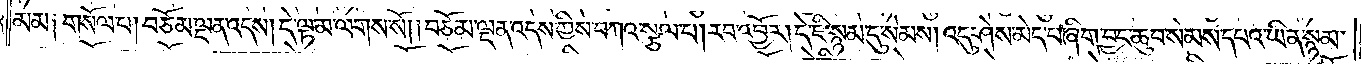མམ༑ གསོལ་པ། བཅོམ་ལྡན་འདས། དེ་ལྟ་མ་ལགས་སོ། །བཅོམ་ལྡན་འདས་ཀྱིས་བཀའ་སྩལ་པ། རབ་འབྱོར། དེ་ཇི་སྙམ་དུ་སེམས། འདུ་ཤེས་མེད་པ་ཞིག་བྱང་ཆུབ་སེམས་དཔའ་ཡིན་སྙམ་
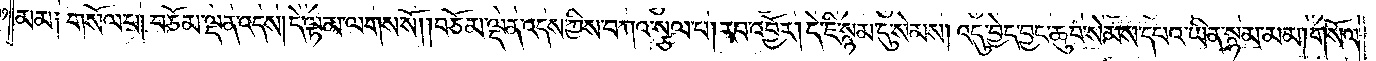མམ༑ གསོལ་པ། བཅོམ་ལྡན་འདས། དེ་ལྟ་མ་ལགས་སོ། །བཅོམ་ལྡན་འདས་ཀྱིས་བཀའ་སྩལ་པ། རབ་འབྱོར། དེ་ཇི་སྙམ་དུ་སེམས། འདུ་བྱེད་བྱང་ཆུབ་སེམས་དཔའ་ཡིན་སྙམ་མམ། གསོལ་
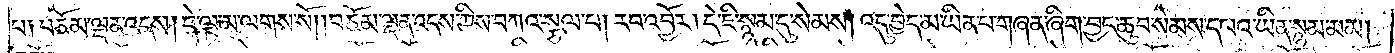པ༑ བཅོམ་ལྡན་འདས། དེ་ལྟ་མ་ལགས་སོ། །བཅོམ་ལྡན་འདས་ཀྱིས་བཀའ་སྩལ་པ། རབ་འབྱོར། དེ་ཇི་སྙམ་དུ་སེམས། འདུ་བྱེད་མ་ཡིན་པ་གཞན་ཞིག་བྱང་ཆུབ་སེམས་དཔའ་ཡིན་སྙམ་མམ།
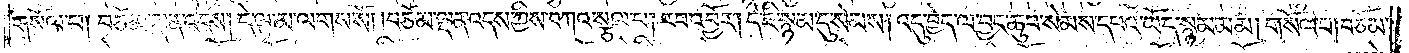གསོལ་པ། བཅོམ་ལྡན་འདས། དེ་ལྟ་མ་ལགས་སོ། །བཅོམ་ལྡན་འདས་ཀྱིས་བཀའ་སྩལ་པ། རབ་འབྱོར། དེ་ཇི་སྙམ་དུ་སེམས། འདུ་བྱེད་ལ་བྱང་ཆུབ་སེམས་དཔའ་ཡོད་སྙམ་མམ། གསོལ་པ། བཅོམ་
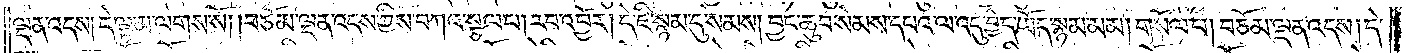ལྡན་འདས། དེ་ལྟ་མ་ལགས་སོ། །བཅོམ་ལྡན་འདས་ཀྱིས་བཀའ་སྩལ་པ། རབ་འབྱོར། དེ་ཇི་སྙམ་དུ་སེམས། བྱང་ཆུབ་སེམས་དཔའ་ལ་འདུ་བྱེད་ཡོད་སྙམ་མམ། གསོལ་པ། བཅོམ་ལྡན་འདས། དེ་
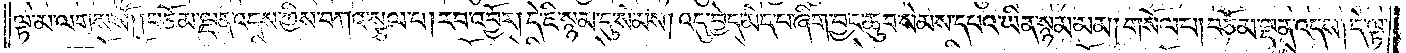ལྟ་མ་ལགས་སོ། །བཅོམ་ལྡན་འདས་ཀྱིས་བཀའ་སྩལ་པ། རབ་འབྱོར། དེ་ཇི་སྙམ་དུ་སེམས། འདུ་བྱེད་མེད་པ་ཞིག་བྱང་ཆུབ་སེམས་དཔའ་ཡིན་སྙམ་མམ། གསོལ་པ། བཅོམ་ལྡན་འདས། དེ་ལྟ་
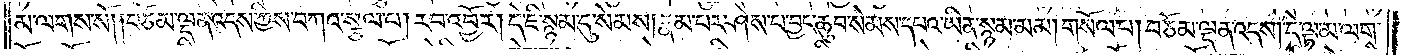མ་ལགས་སོ། །བཅོམ་ལྡན་འདས་ཀྱིས་བཀའ་སྩལ་པ། རབ་འབྱོར། དེ་ཇི་སྙམ་དུ་སེམས། རྣམ་པར་ཤེས་པ་བྱང་ཆུབ་སེམས་དཔའ་ཡིན་སྙམ་མམ། གསོལ་པ། བཅོམ་ལྡན་འདས། དེ་ལྟ་མ་ལགས་
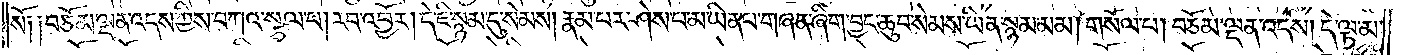སོ༑ ༑བཅོམ་ལྡན་འདས་ཀྱིས་བཀའ་སྩལ་པ། རབ་འབྱོར། དེ་ཇི་སྙམ་དུ་སེམས། རྣམ་པར་ཤེས་པ་མ་ཡིན་པ་གཞན་ཞིག་བྱང་ཆུབ་སེམས་ཡིན་སྙམ་མམ། གསོལ་པ། བཅོམ་ལྡན་འདས། དེ་ལྟ་མ་
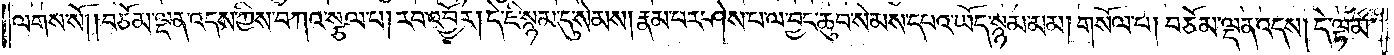ལགས་སོ། །བཅོམ་ལྡན་འདས་ཀྱིས་བཀའ་སྩལ་པ། རབ་འབྱོར། དེ་ཇི་སྙམ་དུ་སེམས། རྣམ་པར་ཤེས་པ་ལ་བྱང་ཆུབ་སེམས་དཔའ་ཡོད་སྙམ་མམ། གསོལ་པ། བཅོམ་ལྡན་འདས། དེ་ལྟ་མ་
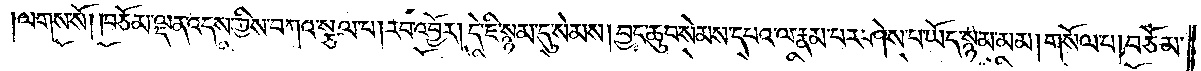ལགས་སོ། །བཅོམ་ལྡན་འདས་ཀྱིས་བཀའ་སྩལ་པ། རབ་འབྱོར། དེ་ཇི་སྙམ་དུ་སེམས། བྱང་ཆུབ་སེམས་དཔའ་ལ་རྣམ་པར་ཤེས་པ་ཡོད་སྙམ་མམ། གསོལ་པ། བཅོམ་
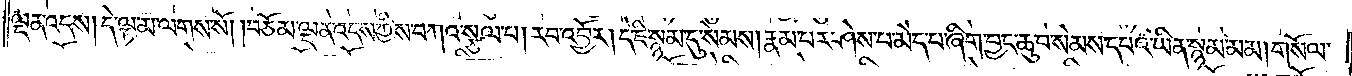ལྡན་འདས། དེ་ལྟ་མ་ལགས་སོ། །བཅོམ་ལྡན་འདས་ཀྱིས་བཀའ་སྩལ་པ། རབ་འབྱོར། དེ་ཇི་སྙམ་དུ་སེམས། རྣམ་པར་ཤེས་པ་མེད་པ་ཞིག་བྱང་ཆུབ་སེམས་དཔའ་ཡིན་སྙམ་མམ། གསོལ་
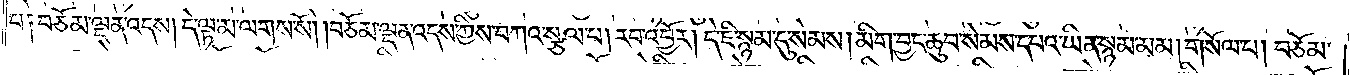པ༑ བཅོམ་ལྡན་འདས། དེ་ལྟ་མ་ལགས་སོ། །བཅོམ་ལྡན་འདས་ཀྱིས་བཀའ་སྩལ་པ། རབ་འབྱོར། དེ་ཇི་སྙམ་དུ་སེམས། མིག་བྱང་ཆུབ་སེམས་དཔའ་ཡིན་སྙམ་མམ། གསོལ་པ། བཅོམ་
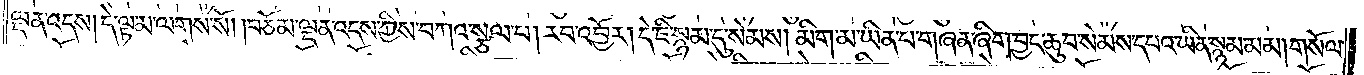ལྡན་འདས། དེ་ལྟ་མ་ལགས་སོ། །བཅོམ་ལྡན་འདས་ཀྱིས་བཀའ་སྩལ་པ། རབ་འབྱོར། དེ་ཇི་སྙམ་དུ་སེམས། མིག་མ་ཡིན་པ་གཞན་ཞིག་བྱང་ཆུབ་སེམས་དཔའ་ཡིན་སྙམ་མམ། གསོལ་
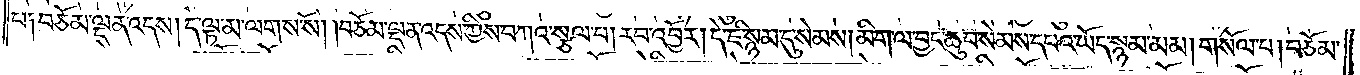པ༑ བཅོམ་ལྡན་འདས། དེ་ལྟ་མ་ལགས་སོ། །བཅོམ་ལྡན་འདས་ཀྱིས་བཀའ་སྩལ་པ། རབ་འབྱོར། དེ་ཇི་སྙམ་དུ་སེམས། མིག་ལ་བྱང་ཆུབ་སེམས་དཔའ་ཡོད་སྙམ་མམ། གསོལ་པ། བཅོམ་
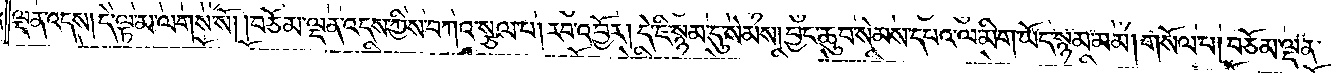ལྡན་འདས། དེ་ལྟ་མ་ལགས་སོ། །བཅོམ་ལྡན་འདས་ཀྱིས་བཀའ་སྩལ་པ། རབ་འབྱོར། དེ་ཇི་སྙམ་དུ་སེམས། བྱང་ཆུབ་སེམས་དཔའ་ལ་མིག་ཡོད་སྙམ་མམ། གསོལ་པ། བཅོམ་ལྡན་
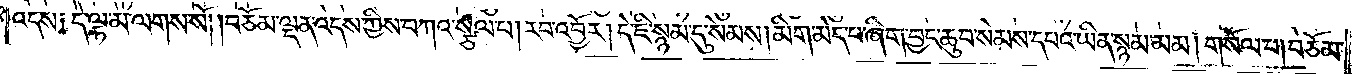འདས༑ དེ་ལྟ་མ་ལགས་སོ། །བཅོམ་ལྡན་འདས་ཀྱིས་བཀའ་སྩལ་པ། རབ་འབྱོར། དེ་ཇི་སྙམ་དུ་སེམས། མིག་མེད་པ་ཞིག་བྱང་ཆུབ་སེམས་དཔའ་ཡིན་སྙམ་མམ། གསོལ་པ། བཅོམ་
